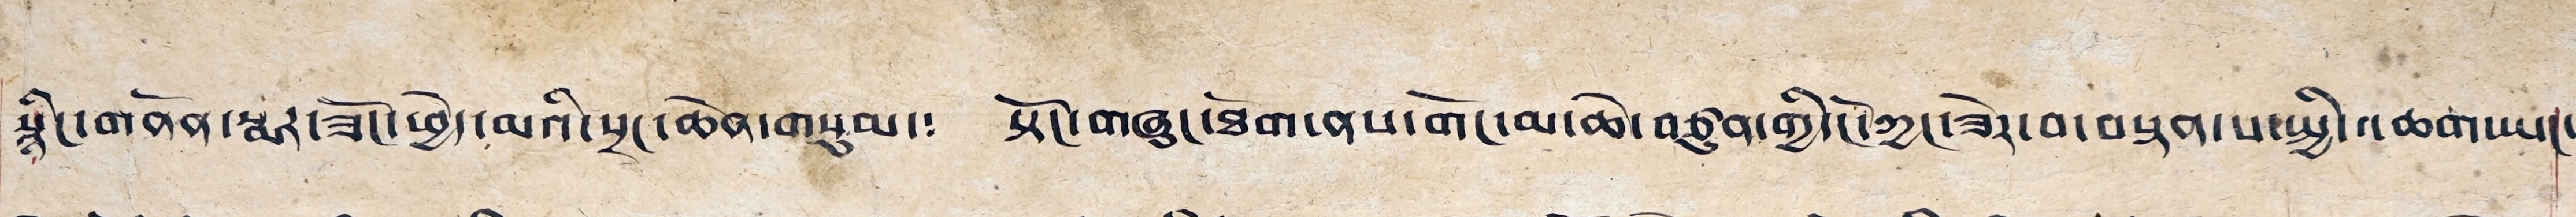སྙིང་གནོན་སྨར་ཟོང་ཕྱེད་མའི་སྲང་ཆེན་གསུམ་༴ སྟོང་གཞུང་ཐོག་ནས་གོང་མ་ཆེ་བཙུན་གྱི་ངོ་ཀྱང་ཟེར་བ་བསྟན་པ་སྤྱི་འཆག་ཡང་
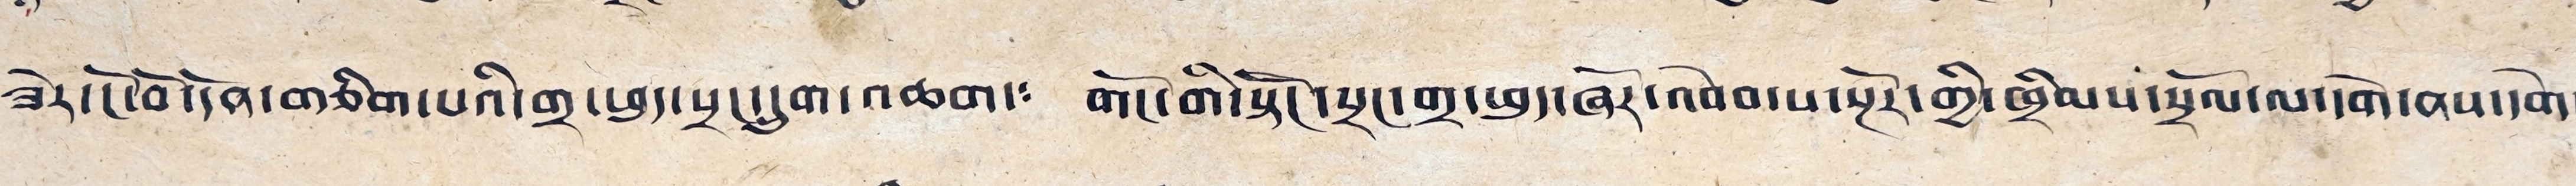ཟེར་ངོ་བོ་དོན་གཅིག་པའི་གྲ་ཕུད་སྲང་དྲུག་འཆག་༴ གོང་གི་སྟོང་སྲང་གྲ་ཕུད་ཞོར་འབེབ་པ་སྔོར་གྱི་ཁྲིམས་སྲོལ་ལ་དགེ་ནས་དགེ་
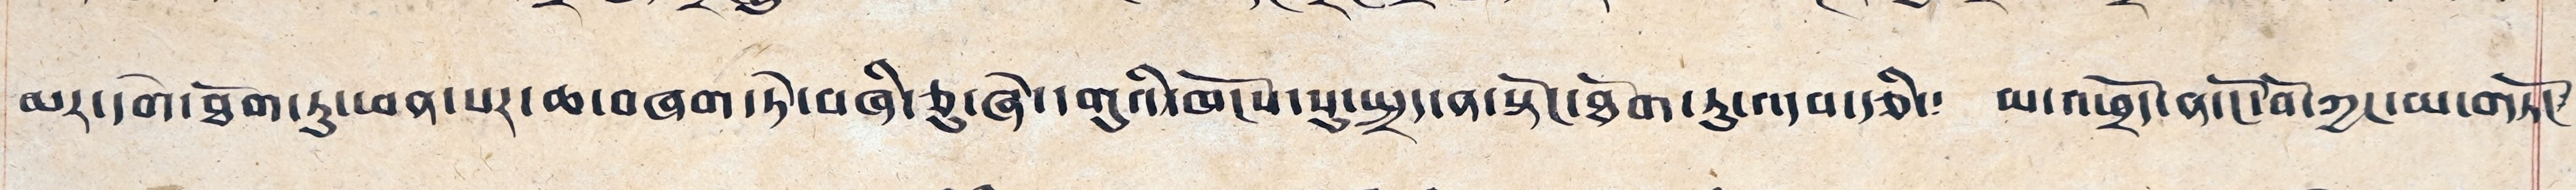མར་དགེ་ཐོག་ཏུ་ཕན་པར་ཆ་བཞག་ཏེ་བཞི་ཅུ་ཞེ་དགུའི་ཁོངས་སུ་སྤྲད་ན་སྟོང་ཐོག་ཏུ་འདབ་རྩི་༴ མ་འཕྲོད་ན་ངོ་བོ་ཀྱང་མ་གཏོང་
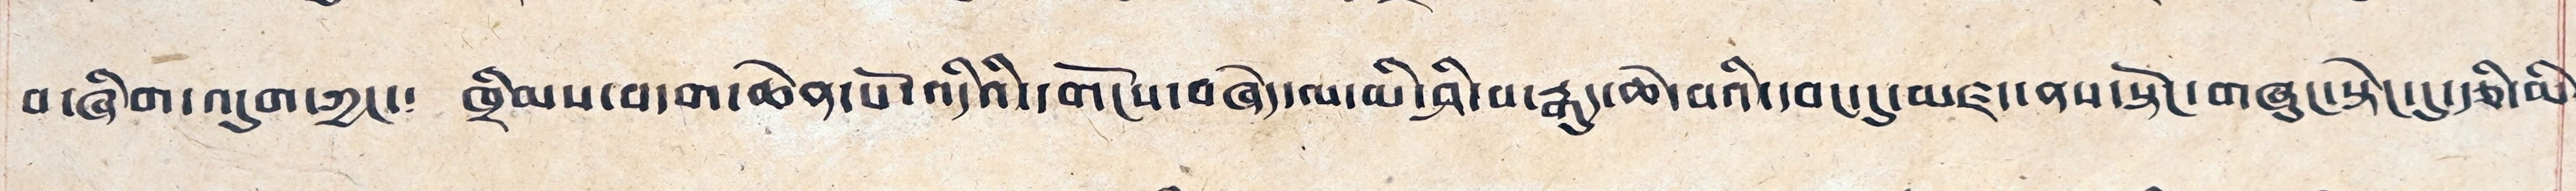བ་ཞིག་འདུག་ཀྱང་༴ ཁྲིམས་བདག་ཆེན་པོ་འདིའི་དགོངས་བཞེད་ལ་མི་ཤི་བ་རྒུད་ཆེ་བའི་དབང་དུ་མཛད་ནས་སྟོང་གཞུང་སྟེང་དུ་རྩི་མི༴
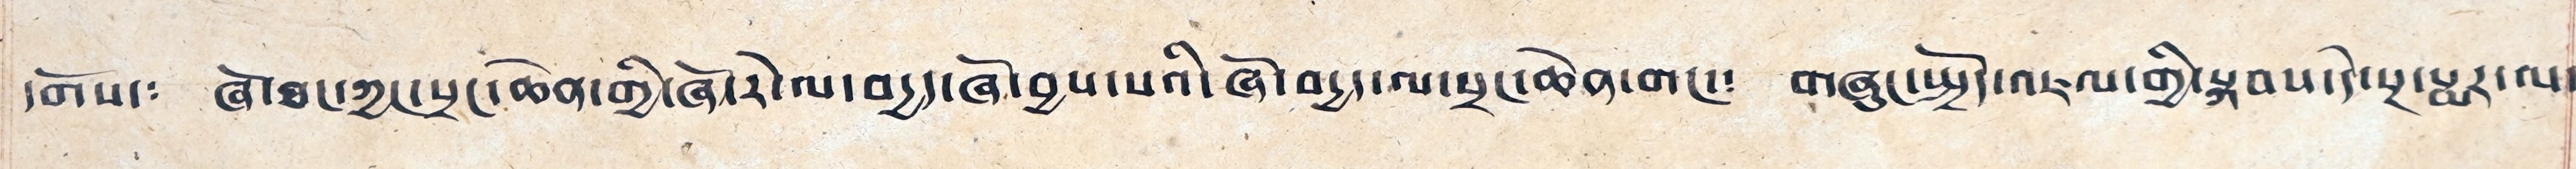དགོས་༴ ཞོ་ཐང་ཀྱང་སྲང་ཆེན་གྱི་ཞོ་རེ་ལ་བདྱད་ཞོ་བྱས་པའི་ཞོ་བདྱད་ལ་སྲང་ཆེན་གང་༴ གཞུང་སྤྲོད་འཇལ་གྱི་སྐབས་དེ་སྔ་སྨར་ལ་
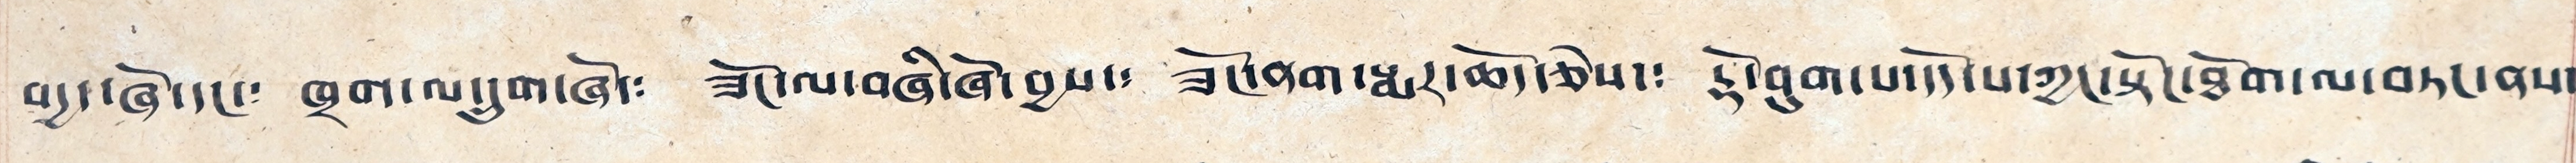བདྱད་ཞོ་དང་༴ ཁྲག་ལ་དྲུག་ཞོ་༴ ཟོང་ལ་བཞི་ཞོ་བྱས་༴ ཟོང་ནག་སྨར་ཆོད་ཅེས་༴ རྡོ་བུག་པ་དོད་པ་ཀྱང་སྟོང་ཐོག་ལ་བཏང་ནས་
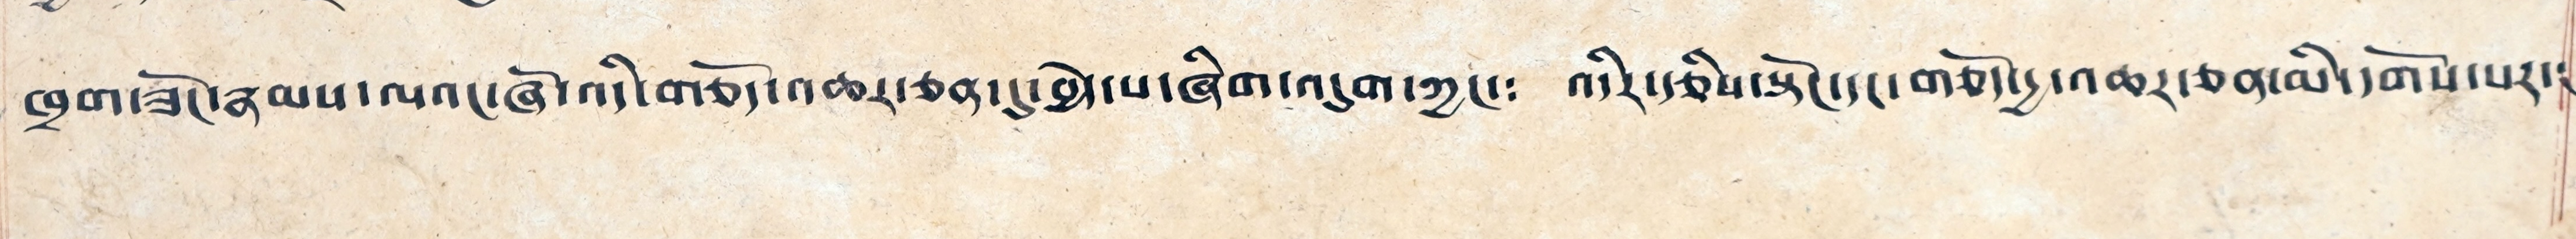ཁྲག་ཟོང་རྣམས་ལའང་ཞོ་འདི་གཅོད་འཆར་ཅན་དུ་བྱེད་པ་ཞིག་འདུག་ཀྱང་༴ འདིར་རྩིས་སྟོང་དང་གགོ་དྱ་འཆར་ཅན་མི་དགོས་པར་༴
